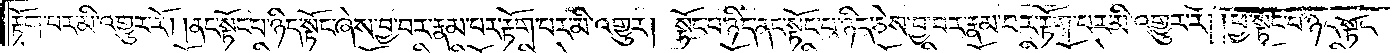རྟོག་པར་མི་འགྱུར་རོ། །ནང་སྟོང་པ་ཉིད་སྟོང་ཞེས་བྱ་བར་རྣམ་པར་རྟོག་པར་མི་འགྱུར། སྟོང་པ་ཉིད་ནང་སྟོང་པ་ཉིད་ཅེས་བྱ་བར་རྣམ་པར་རྟོག་པར་མི་འགྱུར་རོ། །ཕྱི་སྟོང་པ་ཉིད་སྟོང་
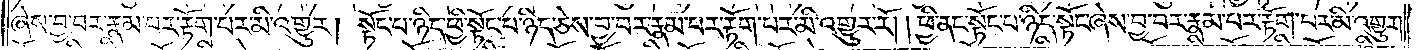ཞེས་བྱ་བར་རྣམ་པར་རྟོག་པར་མི་འགྱུར། སྟོང་པ་ཉིད་ཕྱི་སྟོང་པ་ཉིད་ཅེས་བྱ་བར་རྣམ་པར་རྟོག་པར་མི་འགྱུར་རོ། །ཕྱི་ནང་སྟོང་པ་ཉིད་སྟོང་ཞེས་བྱ་བར་རྣམ་པར་རྟོག་པར་མི་འགྱུར།
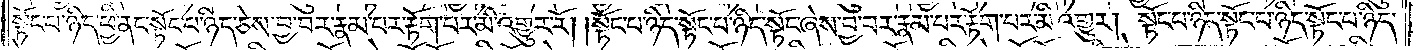སྟོང་པ་ཉིད་ཕྱི་ནང་སྟོང་པ་ཉིད་ཅེས་བྱ་བར་རྣམ་པར་རྟོག་པར་མི་འགྱུར་རོ། །སྟོང་པ་ཉིད་སྟོང་པ་ཉིད་སྟོང་ཞེས་བྱ་བར་རྣམ་པར་རྟོག་པར་མི་འགྱུར། སྟོང་པ་ཉིད་སྟོང་པ་ཉིད་སྟོང་པ་ཉིད་
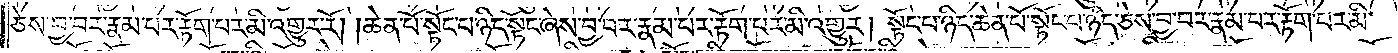ཅེས་བྱ་བར་རྣམ་པར་རྟོག་པར་མི་འགྱུར་རོ། །ཆེན་པོ་སྟོང་པ་ཉིད་སྟོང་ཞེས་བྱ་བར་རྣམ་པར་རྟོག་པར་མི་འགྱུར། སྟོང་པ་ཉིད་ཆེན་པོ་སྟོང་པ་ཉིད་ཅེས་བྱ་བར་རྣམ་པར་རྟོག་པར་མི་
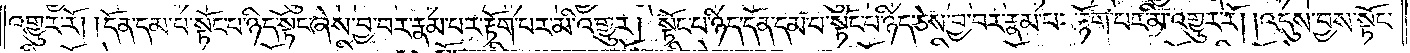འགྱུར་རོ། །དོན་དམ་པ་སྟོང་པ་ཉིད་སྟོང་ཞེས་བྱ་བར་རྣམ་པར་རྟོག་པར་མི་འགྱུར། སྟོང་པ་ཉིད་དོན་དམ་པ་སྟོང་པ་ཉིད་ཅེས་བྱ་བར་རྣམ་པར་རྟོག་པར་མི་འགྱུར་རོ། །འདུས་བྱས་སྟོང་
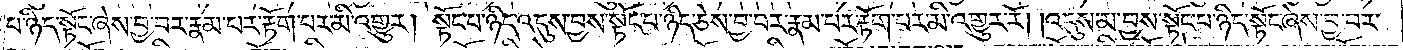པ་ཉིད་སྟོང་ཞེས་བྱ་བར་རྣམ་པར་རྟོག་པར་མི་འགྱུར། སྟོང་པ་ཉིད་འདུས་བྱས་སྟོང་པ་ཉིད་ཅེས་བྱ་བར་རྣམ་པར་རྟོག་པར་མི་འགྱུར་རོ། །འདུས་མ་བྱས་སྟོང་པ་ཉིད་སྟོང་ཞེས་བྱ་བར་
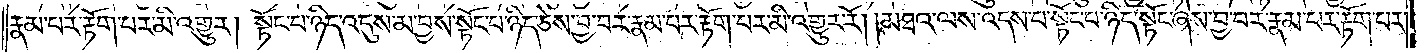རྣམ་པར་རྟོག་པར་མི་འགྱུར། སྟོང་པ་ཉིད་འདུས་མ་བྱས་སྟོང་པ་ཉིད་ཅེས་བྱ་བར་རྣམ་པར་རྟོག་པར་མི་འགྱུར་རོ། །མཐའ་ལས་འདས་པ་སྟོང་པ་ཉིད་སྟོང་ཞེས་བྱ་བར་རྣམ་པར་རྟོག་པར་
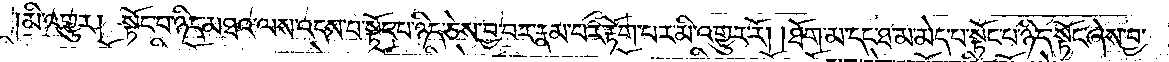མི་འགྱུར། སྟོང་པ་ཉིད་མཐའ་ལས་འདས་པ་སྟོང་པ་ཉིད་ཅེས་བྱ་བར་རྣམ་པར་རྟོག་པར་མི་འགྱུར་རོ། །ཐོག་མ་དང་ཐ་མ་མེད་པ་སྟོང་པ་ཉིད་སྟོང་ཞེས་བྱ་
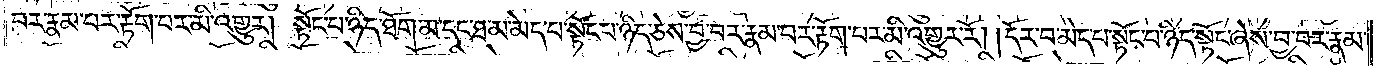བར་རྣམ་པར་རྟོག་པར་མི་འགྱུར། སྟོང་པ་ཉིད་ཐོག་མ་དང་ཐ་མ་མེད་པ་སྟོང་པ་ཉིད་ཅེས་བྱ་བར་རྣམ་པར་རྟོག་པར་མི་འགྱུར་རོ། །དོར་བ་མེད་པ་སྟོང་པ་ཉིད་སྟོང་ཞེས་བྱ་བར་རྣམ་
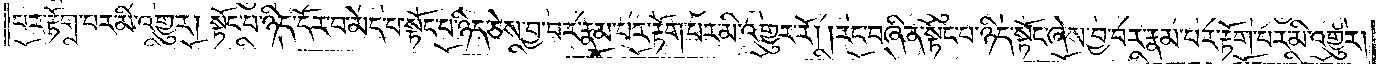པར་རྟོག་པར་མི་འགྱུར། སྟོང་པ་ཉིད་དོར་བ་མེད་པ་སྟོང་པ་ཉིད་ཅེས་བྱ་བར་རྣམ་པར་རྟོག་པར་མི་འགྱུར་རོ། །རང་བཞིན་སྟོང་པ་ཉིད་སྟོང་ཞེས་བྱ་བར་རྣམ་པར་རྟོག་པར་མི་འགྱུར།
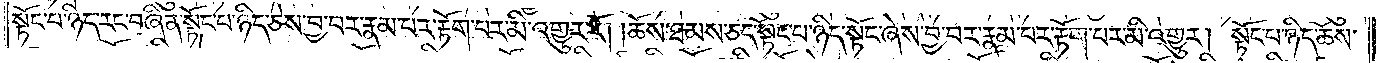སྟོང་པ་ཉིད་རང་བཞིན་སྟོང་པ་ཉིད་ཅེས་བྱ་བར་རྣམ་པར་རྟོག་པར་མི་འགྱུར་རོ། །ཆོས་ཐམས་ཅད་སྟོང་པ་ཉིད་སྟོང་ཞེས་བྱ་བར་རྣམ་པར་རྟོག་པར་མི་འགྱུར། སྟོང་པ་ཉིད་ཆོས་
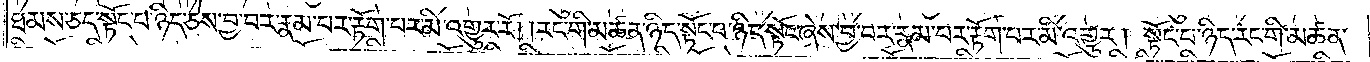ཐམས་ཅད་སྟོང་པ་ཉིད་ཅེས་བྱ་བར་རྣམ་པར་རྟོག་པར་མི་འགྱུར་རོ། །རང་གི་མཚན་ཉིད་སྟོང་པ་ཉིད་སྟོང་ཞེས་བྱ་བར་རྣམ་པར་རྟོག་པར་མི་འགྱུར། སྟོང་པ་ཉིད་རང་གི་མཚན་
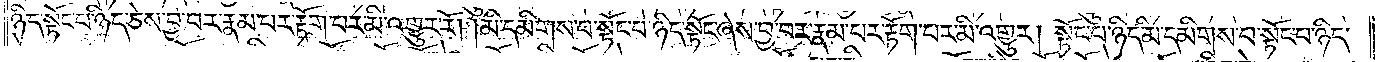ཉིད་སྟོང་པ་ཉིད་ཅེས་བྱ་བར་རྣམ་པར་རྟོག་པར་མི་འགྱུར་རོ། །མི་དམིགས་པ་སྟོང་པ་ཉིད་སྟོང་ཞེས་བྱ་བར་རྣམ་པར་རྟོག་པར་མི་འགྱུར། སྟོང་པ་ཉིད་མི་དམིགས་པ་སྟོང་པ་ཉིད་
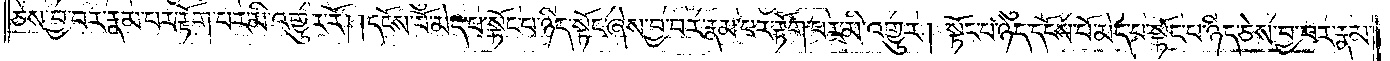ཅེས་བྱ་བར་རྣམ་པར་རྟོག་པར་མི་འགྱུར་རོ། །དངོས་པོ་མེད་པ་སྟོང་པ་ཉིད་སྟོང་ཞེས་བྱ་བར་རྣམ་པར་རྟོག་པར་མི་འགྱུར། སྟོང་པ་ཉིད་དངོས་པོ་མེད་པ་སྟོང་པ་ཉིད་ཅེས་བྱ་བར་རྣམ་
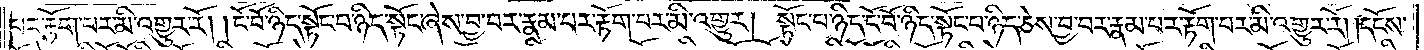པར་རྟོག་པར་མི་འགྱུར་རོ། །ངོ་བོ་ཉིད་སྟོང་པ་ཉིད་སྟོང་ཞེས་བྱ་བར་རྣམ་པར་རྟོག་པར་མི་འགྱུར། སྟོང་པ་ཉིད་ངོ་བོ་ཉིད་སྟོང་པ་ཉིད་ཅེས་བྱ་བར་རྣམ་པར་རྟོག་པར་མི་འགྱུར་རོ། །དངོས་
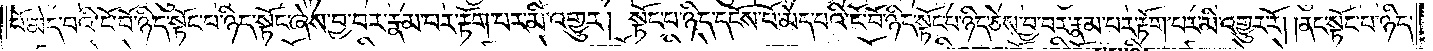པོ་མེད་པའི་ངོ་བོ་ཉིད་སྟོང་པ་ཉིད་སྟོང་ཞེས་བྱ་བར་རྣམ་པར་རྟོག་པར་མི་འགྱུར། སྟོང་པ་ཉིད་དངོས་པོ་མེད་པའི་ངོ་བོ་ཉིད་སྟོང་པ་ཉིད་ཅེས་བྱ་བར་རྣམ་པར་རྟོག་པར་མི་འགྱུར་རོ། །ནང་སྟོང་པ་ཉིད་
